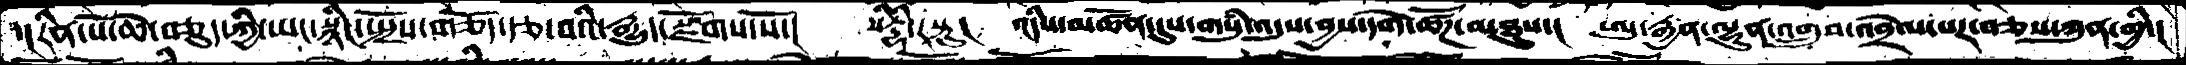་།རིན་པོ་ཆེ་བཅུད་ཀྱི་ཡང་སྙིང་སྤྲོས་གཅོད་རྩ་བའི་རྒྱུད་སྫོགས་སོ་།   སིདྡྷི་རསྟུ།   འདིས་མཚོན་དུས་གསུཾ་འདུས་བྱས་དགེ་ཚོཌ་མཐུས་།  ཨུ་རྒྱན་ལྷུན་འགྲུབ་འབྲེལ་པར་བཅས་ཀུན་གྱི་།
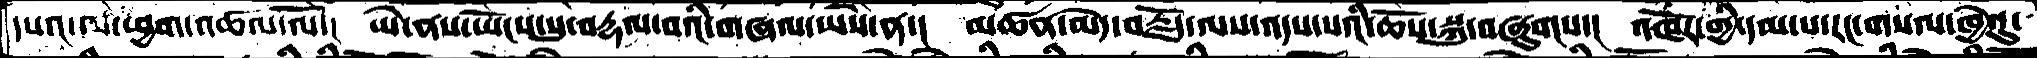དཔའ་ལ་ཕྱག་འཚལ་ལོ་།  ཡེ་ནས་ཡོངས་སུ་བརྡལ་བའི་གཞལ་ཡས་ན་།  མཚན་མེད་བརྗོད་ལས་འདས་པའི་ཆོས་སྐུ་བཞུགས་།  འཁོར་གྱི་དམ་པ་རང་གསལ་ཁྱེའུ་
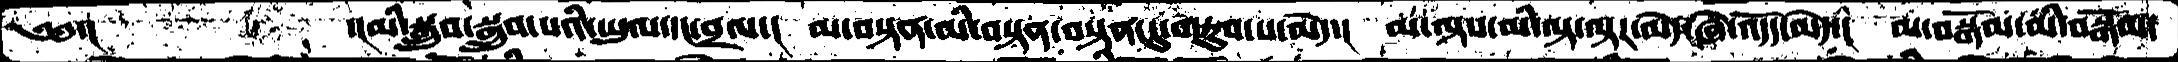༄༅་།        ་།མི་སྒྲུབ་སྒྲུབ་པའི་ཡུལ་དང་བྲལ་།  མ་བསྟན་མི་བསྟན་བསྟན་དུ་གཏུབ་པ་མེད་།  མ་ལྟས་མི་ལྟ་ལྟར་མེད་ཞེ་འདོད་མེད་།  མ་བསྒོམ་མི་བསྒོམ་
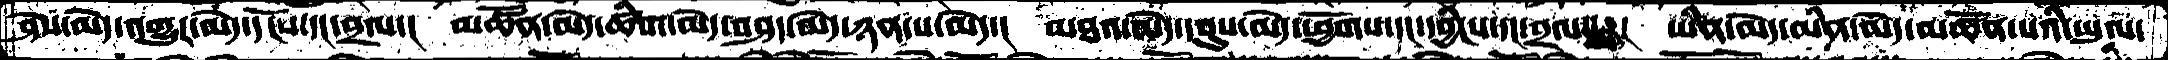ཤེས་མེད་འགྱུར་མེད་དངོས་དང་བྲལ་།  མཚོན་མེད་ཚིག་མེད་བཤད་མེད་ཉན་པ་མེད་།  མཐའ་མེད་དབུས་མེད་ཕྱོགས་དང་དབྱིངས་དང་བྲལ་།  ཡིན་མེད་མིན་མེད་མཚོན་པའི་ཡུལ་
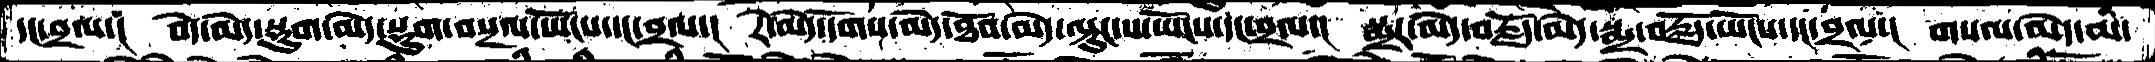དང་བྲལ་།  བདེ་མེད་སྡུག་མེད་སྡུག་བསྔལ་ཡོངས་དང་བྲལ་།  རེ་མེད་དོགས་མེད་ཐོབ་མེད་ལྟུང་པ་ཡོངས་དང་བྲལ་།  སྨྲར་མེད་བརྗོད་མེད་སྨྲ་བརྗོད་ཡོངས་དང་བྲལ་།  གསལ་མེད་མི་
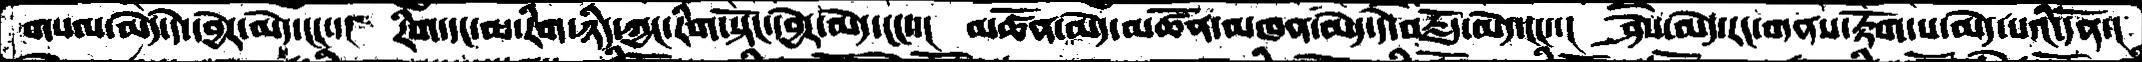གསལ་མེད་དེ་དབྱེར་མེད་ངང་་།  རིག་དང་མ་རིག་ཉིད་ཀྱང་རིག་སྟོང་དབྱེར་མེད་ངང་་།  མཚོན་མེད་མཚོན་མཁན་མེད་དེ་བརྗོད་མེད་ངང་་།  ཤེས་མེད་རང་གནས་རྟོག་པ་མེད་པའི་དོན་།
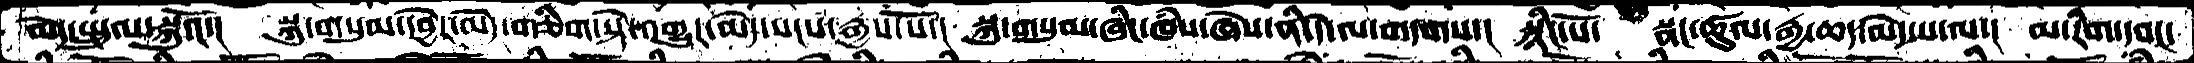མེད་སྤྲུལ་སྐུའོ་།  སྐུ་གསུམ་དབྱེར་མེད་གཅིག་སྟེ་འགྱུར་མེད་སངས་རྒྱས་སོ་།  སྐུ་གསུམ་ཞིང་ཁཾས་ཞེས་ནི་དེ་ལ་གདགས་།  སྙིང་པོ་  སྣང་ཚུལ་རྒྱ་ཆད་མེད་པ་ལ་།  མ་རིག་དབང་
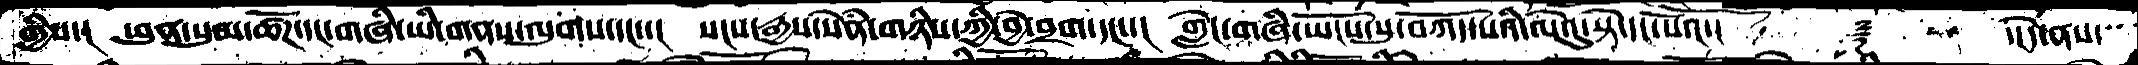གྱིས་།  ཕུན་སུམ་ཚོཌ་དང་གཞི་ཡི་གནས་ལུགས་དང་་།  སངས་རྒྱས་སེནཾ་གཉིས་ཀྱི་བྱེ་བྲག་དང་་།  གླེང་གཞི་ཡོངས་སུ་བཀོད་པའི་ལེའུ་སྟེ་དང་པོའོ་།    ࿑    ་།དེ་ནས་
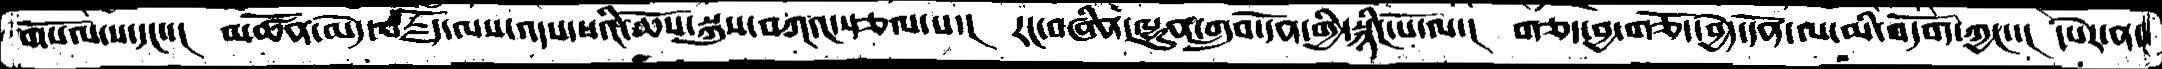གསོལ་པ་དང་་།  མཚོན་མེད་བརྗོད་ལས་འདས་པའི་ཆོས་སྐུས་བཀའ་སྩལ་པ་།   རང་བཞིན་ལྷུན་གྲུབ་དོན་གྱི་སྙིང་པོ་ལ་།   གཅོད་བྱ་གཅོད་བྱེད་དོན་ལ་མི་བདོག་ཀྱང་།  དཔེར་ན་
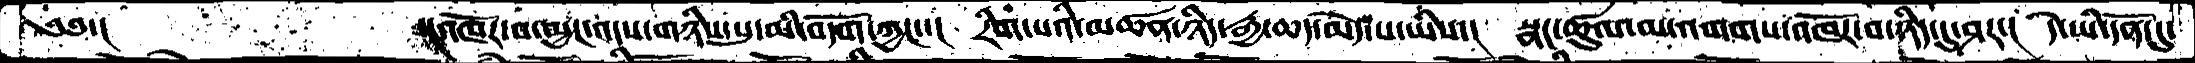༄༅་།      ་།འཁོར་བ་མྱང་འདས་གཉིས་སུ་མི་བདོག་ཀྱང་་།  རིག་པའི་མཚན་ཉིད་རྒྱ་ཆད་མེད་པ་ཡིས་།  སྣང་ཚུལ་མ་འགགས་འཁོར་བ་ཉིད་དུ་ཤར་།  དེ་ཡི་དོན་དུ་
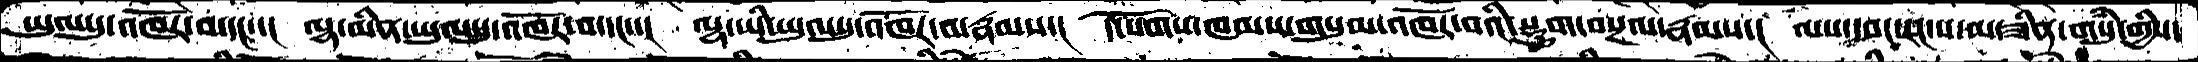ཡུལ་དུ་འཁོར་བ་དང་་།  ལྷ་མིན་ཡུལ་དུ་འཁོར་བ་དང་་།  ལྷ་ཡི་ཡུལ་དུ་འཁོར་བ་རྣམས་།  དེ་སོགས་ཁམས་གསུམ་འཁོར་བའི་སྡུག་བསྔལ་རྣམས་།  ལས་དབང་རང་ས་མ་ཟིན་གསུཾ་གྱིས་
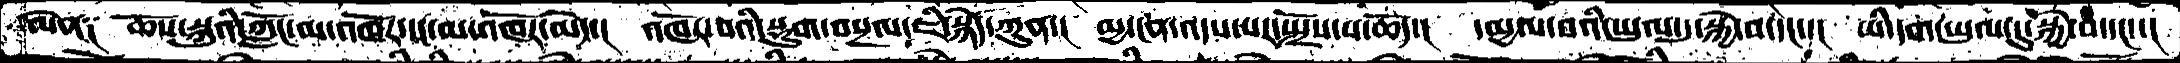མེན༑   ཆོས་སྐུའི་ཀློང་མ་འཁོར་དང་མ་འཁོར་མེད་།  འཁོར་བའི་སྡུག་བསྔལ་ཇི་སྙེད་ཀུན་།  མྱ་ངན་འདས་པར་སྤྲོས་པ་ཆོད་།  དམྱལ་བའི་ཡུལ་དུ་སྐྱེ་བ་དང་་།  ཡི་དག་ཡུལ་དུ་སྐྱེ་བ་དང་་།
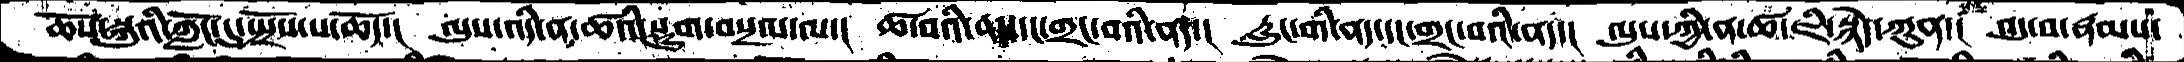ཆོས་སྐུའི་ཀློང་དུ་སྤྲོས་པ་ཆོད་།  ལུས་འདི་ན་ཚའི་སྡུག་བསྔལ་ལ་།  ཚ་བའི་ནད་དང་གྲང་བའི་ནད་།   རླུང་གི་ནད་དང་གྲང་བའི་ནད་།  ལུས་ཀྱི་ན་ཚ་ཇི་སྙེད་ཀུན་།  འདུ་བ་རྣམས་
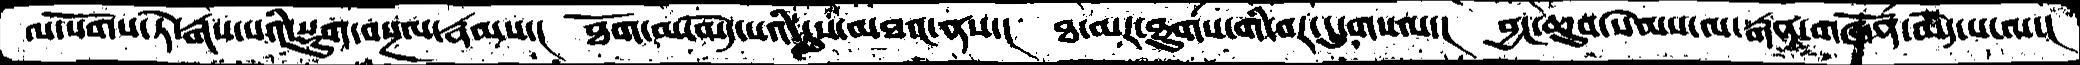ལ་སོགས་ཏེ་རྒས་པའི་སྡུག་བསྔལ་རྣམས་།  ཐོག་མ་མེད་པའི་དུས་མཐའ་ནས་།  ཐ་མར་ཐུགས་གི་བར་དུ་གསལ་།  བྱང་ཆུབ་སེམས་ལ་རྒན་གཞོན་མེད་པ་ལ་།
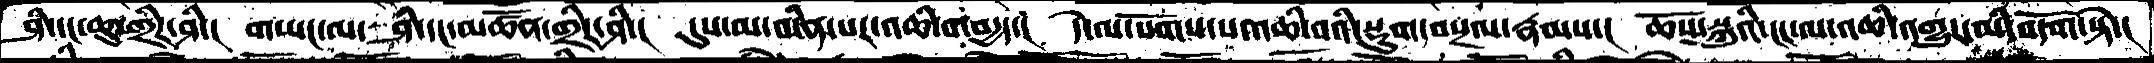ཤི་དང་ཆུ་གྲིར་ཤིང་།  གཡང་ལ་ཤི་དང་མཚོན་གྲིར་ཤི་།  དུས་མ་མིན་པར་འཆི་བ་བདྱད་།  དེ་ལ་སོགས་པ་འཆི་བའི་སྡུག་བསྔལ་རྣམས་།  ཆོས་སྐུའི་ངང་ལ་འཆི་འགྱུར་མི་བདོག་སྟེ་།
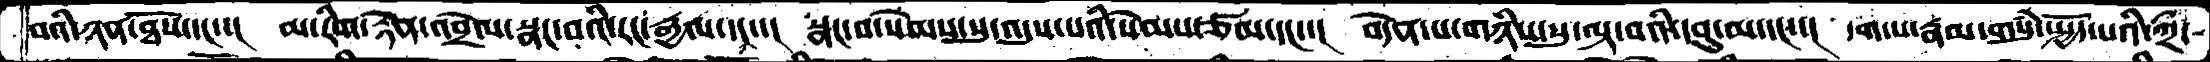བའི་ཉན་ཐོས་དང་་།  མ་རིག་རྟེན་འབྲེལ་སྣང་བའི་རང་རྒྱལ་དང་་།  སྣང་བ་སེམས་སུ་འདུས་པའི་སེམས་ཙམ་དང་་།  བདེན་པ་གཉིས་སུ་ལྟ་བའི་དབུ་མ་དང་་།  དག་པ་རྣམ་གསུཾ་སྤྱོད་པའི་ཀྲྀ་
